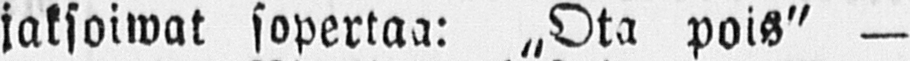jaksoiwat sopertaa: „Ota pois" —
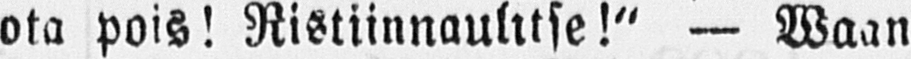ota pois! Ristiinnaulitse!" — Waan
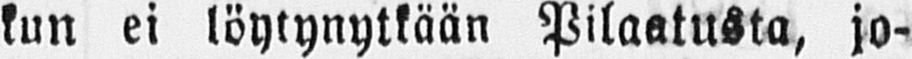kun ei löytynytkään Pilaatusta, jo-
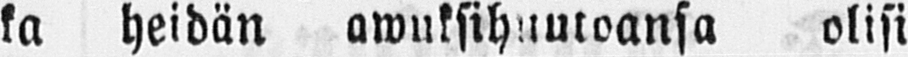ka heidän awuksihuutoansa olisi
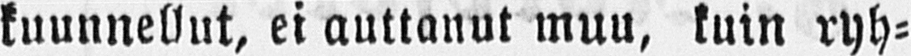kuunnellut, ei auttanut muu, kuin ryh-
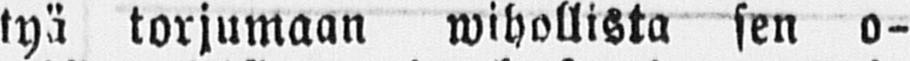tyä torjumaan wihollista sen o-
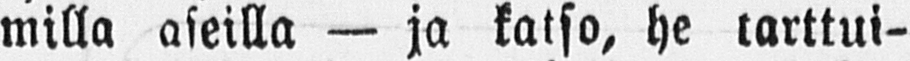milla aseilla — ja katso, he tarttui-
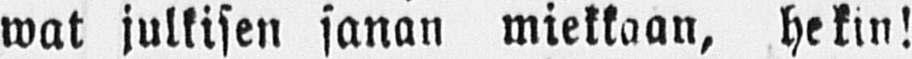wat julkisen sanan miekkaan, hekin!
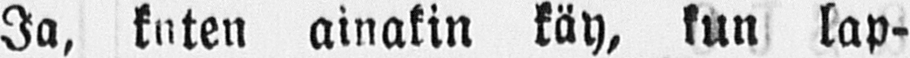Ja, knten ainakin käy, kun lap-
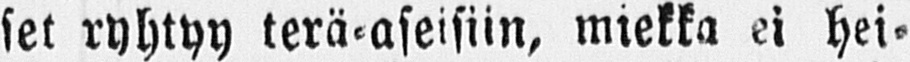set ryhtyy terä-aseisiin, miekka ei hei-
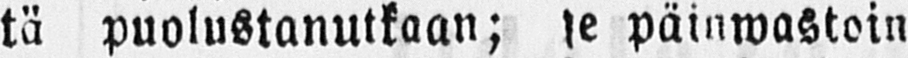tä puolustanutkaan; se päinwastoin
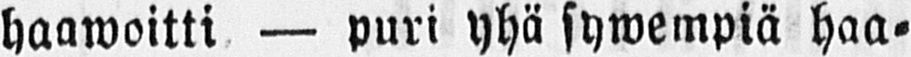haawoitti — puri yhä sywempiä haa-
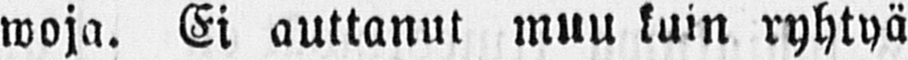woja. Ei auttanut muu kuin ryhtyä
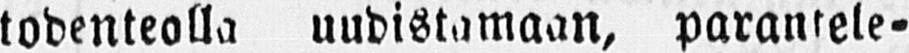todenteolla uudistamaan, parantele-
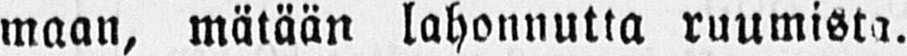maan, mätään lahonnutta ruumista.
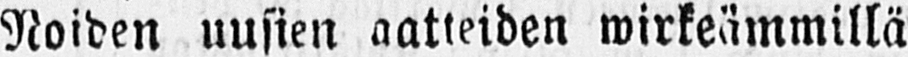Noiden uusien aatteiden wirkeämmillä
